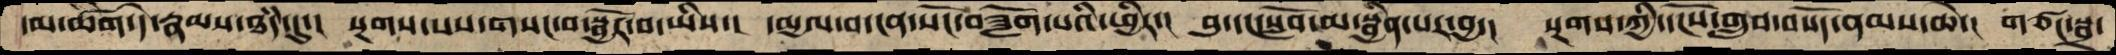དམ་ཚིག་དེ་རྣམས་ཐདཾ་དུ་།  སྔགས་པས་གསང་བ་སྦྱོར་བ་ཡིས་།  དམྱལ་བ་ངན་སོང་བཟློག་པའི་ཕྱིར་།  བུ་དང་སློབ་མ་སྦྱིན་པར་བྱ་།  སྔགས་ཀྱི་དངོས་གྲུབ་བསོད་ནམས་ཆེ་།  གཙང་སྦྲ་
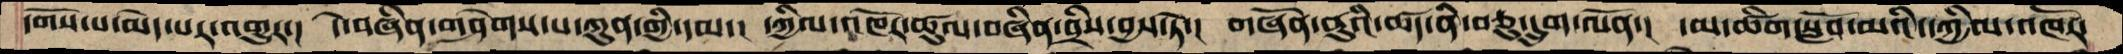དགོས་པ་མེད་པར་འགྱུར་།  དེ་བཞིན་གཤེགས་པ་ཀུན་གྱི་དམ་།  དཀྱིལ་འཁོར་ཚུལ་བཞིན་བྲིས་བྱས་ཏེ་།  གཞོན་ནུའི་ཚད་ནི་བཅུ་དྲུག་ལོན་།  དམ་ཚིག་སློབ་མའི་དཀྱིལ་འཁོར་
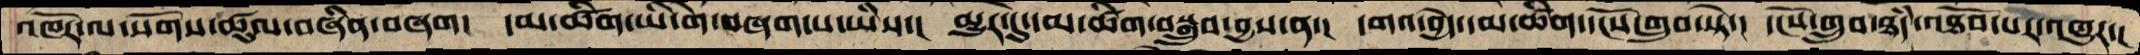འཁོར་ལ་སོགས་ཚུལ་བཞིན་བཞག།  དམ་ཚིག་ཡི་གེ་བཞག་པ་ཡིས་།  མྱུར་དུ་དམ་ཚིག་བསྒྲུབ་བྱས་ན་།  དགའ་བྱེད་དམ་ཚིག་དངོས་གྲུབ་སྟེ་།  དངོས་གྲུབ་ཐདཾ་འཐོབ་པར་འགྱུར་།
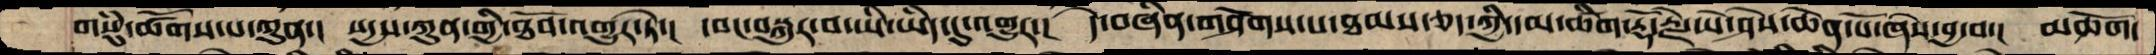གསུཾ་ཚོགས་པ་ཀུན་།  སདྱས་ཀུན་གྱི་ཐོབ་འགྱུར་ཏེ་།  དབང་བསྐུར་བ་ཡི་ཡིད་དུ་འགྱུར་།  དེ་བཞིན་གཤེགས་པ་ཐམས་ཅད་ཀྱི་དམ་ཚིག་རྡོ་རྗེ་ཡེ་ཤེས་ཆེན་པོ་ཞེས་བྱ་བ་།  མཆོག་
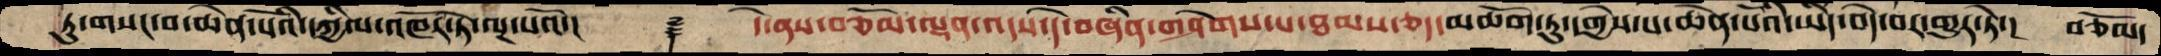ཏུ་གསང་བ་ཆེན་པོའི་དཀྱིལ་འཁོར་ལྔ་པའོ་།   ࿑    དེ་ནས་བཅོམ་ལྡན་འདས་དེ་བཞིན་གཤེགས་པ་ཐམས་ཅད་མཆོག་ཏུ་དགྱེས་པ་ཆེན་པོའི་ཡིད་བདེ་བར་འགྱུར་ཏེ་།  བཅོམ་
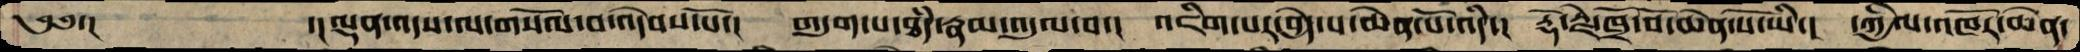༄༅་།     ་།ལྡན་འདས་ལ་གསོལ་བ་འདེབས་སོ་།  གདུག་པ་ཐདཾ་རྣམ་འདུལ་བ་།  འཇིག་པར་བྱེད་པ་ཆེན་པོ་འདི་།  རྡོ་རྗེ་ཁྲོ་བོ་ཆེན་པོ་ཡི་།  དཀྱིལ་འཁོར་ཆེན་
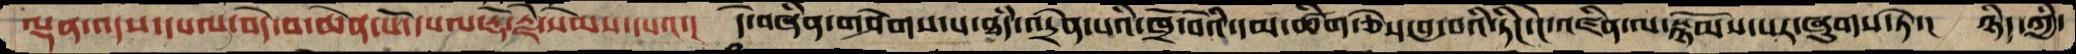ལྡན་འདས་དཔལ་བདེ་བ་ཆེན་པོ་དཔལ་རྡོ་རྗེ་སེམས་དཔའ་།  དེ་བཞིན་གཤེགས་པ་ཐདཾ་འདྲེན་པའི་ཁྲོ་བོའི་དམ་ཚིག་ཅེས་བྱ་བའི་ཏིང་ངེ་འཛིན་སྙོམས་པར་ཞུགས་ཏེ་།  ཉིད་ཀྱི་
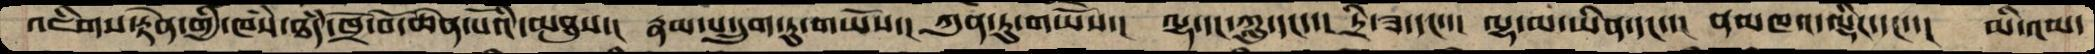འཇིག་རྟེན་གྱི་ཁཾས་ཐདཾ་ཁྲོ་བོ་ཆེན་པོའི་མཐུས་།  རྣམ་པ་དྲུག་ཏུ་གཡོས་།  ཀུན་ཏུ་གཡོས་།  ལྷ་དང་ཀླུ་དང་།  དྲི་ཟ་དང་།  ལྷ་མ་ཡིན་དང་་།  ནམཁའ་ལྡིང་དང་་།  མི་འམ་
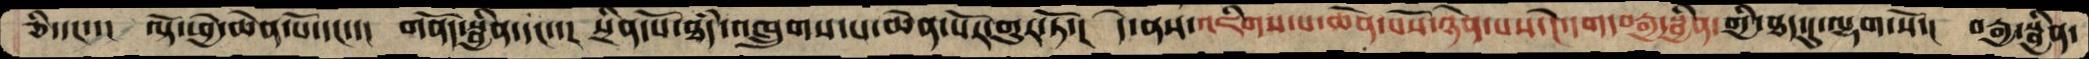ཅི་དང་་།  ལྟོ་ཕྱེ་ཆེན་པོ་དང་་།  གནོད་སྦྱིན་དང་་།  སྲིན་པོ་ཐདཾ་འཁྲུགས་པ་ཆེན་པོར་གྱུར་ཏོ་།  དེ་ནས་འཇིགས་པ་ཆེན་པོས་ཉེན་པས་དེ་དག་བརྒྱ་སྦྱིན་གྱི་ཐད་དུ་ལྷག་སོ་།  བརྒྱ་སྦྱིན་
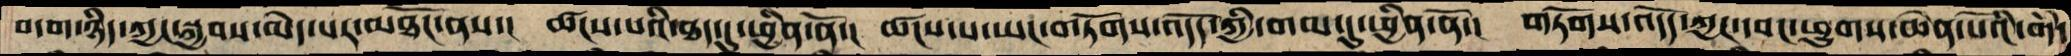བདག་ཉིད་ཀྱང་སྐྱབས་མེད་པར་མཐོང་ནས་།  ཚངས་པའི་ཐད་དུ་ཕྱིན་ནོ་།  ཚངས་པ་ཡང་གཏོགས་འདོད་ཀྱི་གམ་དུ་ཕྱིན་ནོ་།  གཏོགས་འདོད་ཀྱང་དབང་ཕྱུགས་ཆེན་པོའི་གཾ་
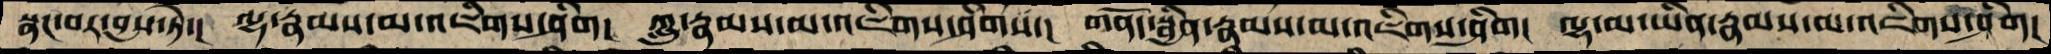སྣང་བར་བྱས་ཏེ་།  ལྷ་རྣམས་མ་འཇིགས་ཤིག།  ཀླུ་རྣམས་མ་འཇིགས་ཤིགས་།  གནོད་སྦྱིན་རྣམས་མ་འཇིགས་ཤིག།  ལྷ་མ་ཡིན་རྣམས་མ་འཇིགས་ཤིག།
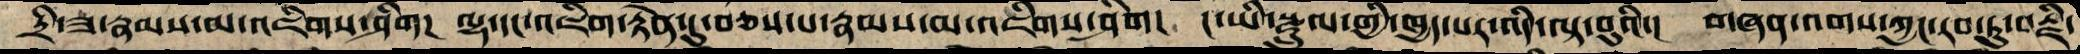དྲི་ཟ་རྣམས་མ་འཇིགས་ཤིག།  ལྷ་དང་འཇིག་རྟེན་དུ་བཅས་པ་རྣམས་མ་འཇིགས་ཤིག།  ང་ཡི་སྫྲུལ་གྱི་ཁྱད་པར་འདི་ལྟ་བུའི་།  གཞན་འགས་ཀྱང་རབ་ཏུ་བརྫི་
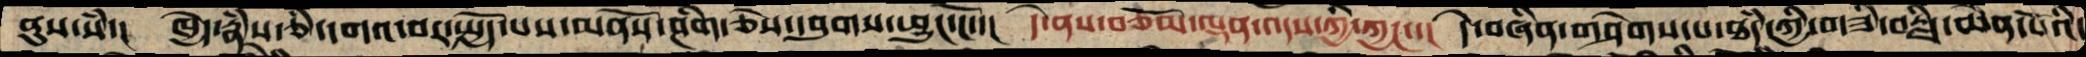ནུས་སཾ་།  ཁྱེད་རྣཾས་ཅི་དགའ་བར་སྤྱོད་པས་མནོས་ཤིག་ཅེས་དབུགས་ཕྱུང་ངོ་་།  དེ་ནས་བཅོམ་ལྡན་འདས་ཀྱི་ཀྱང་་།  དེ་བཞིན་གཤེགས་པ་ཐཾད་ཀྱི་གཟི་བརྗིད་ཆེན་པོའི་
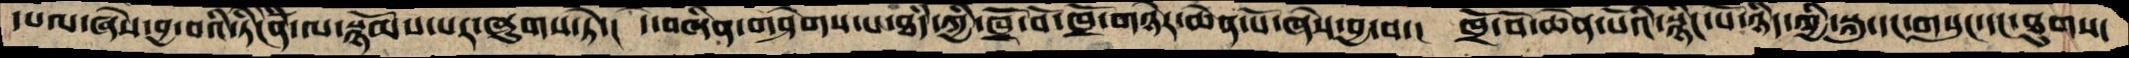དཔལ་ཞེས་བྱ་བའི་ཏིངེིན་ལ་སྙོམས་པར་ཞུགས་ཏེ་།  དེ་བཞིན་གཤེགས་པ་ཐཾད་ཀྱི་ཁྲོ་བོ་ཁྲོ་གཉེར་ཆེན་པོ་ཞེས་བྱ་བ་།  ཁྲོ་བོ་ཆེན་པོའི་སྙིང་པོ་ཉིད་ཀྱི་སྐུ་དང་གསུང་དང་ཐུགས་
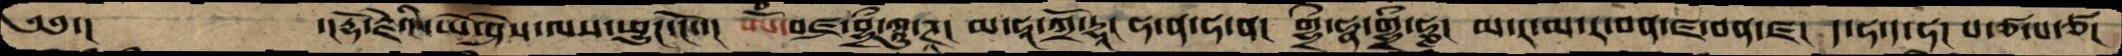༄༅་།       ་།རྡོ་རྗེའི་ཡེ་ཤེས་ལས་ཕྱུང་ངོ་།  ཨོཾ་བཛྲ་བྷྲྀ་ཀཱུ་ཊཱ། མ་ཧཱ་ཀྲོ་དྷཱ་ཧ་ན་ཧ་ན།  གྷྲྀ་ཧྣ་གྷྲྀ་ཧྣ།  མ་ར་མ་ར་བན་ཛ་བན་ཛ།  ད་ཧ་ད་ཧ།  པ་ཙ་པ་ཙ།
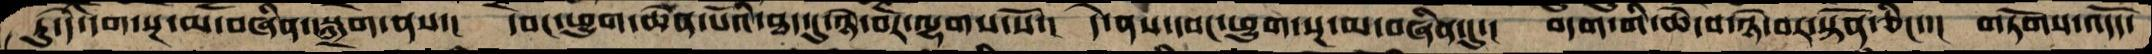ཏུ་དེ་དག་སྔ་མ་བཞིན་སྐྲག་ནས་།  དབང་ཕྱུག་ཆེན་པོའི་ཐད་དུ་ཉེ་བར་ལྷགས་སོ་།  དེ་ནས་དབང་ཕྱུག་སྔ་མ་བཞིན་དུ་།  བདག་གི་ཆེ་བ་ཉེ་བར་སྟོན་ཅིང་་།  གཏོགས་འདོད་
